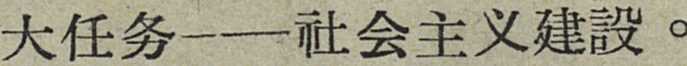大任务——社会主义建設。
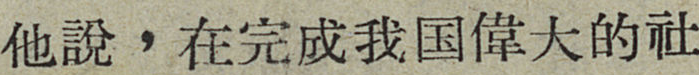他說，在完成我国偉大的社
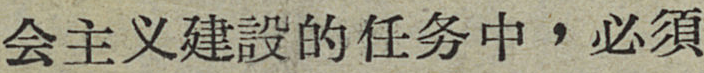会主义建設的任务中，必須
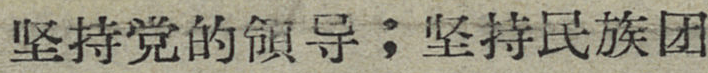坚持党的領导；坚持民族团
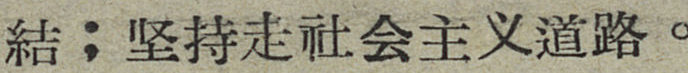結；坚持走社会主义道路。
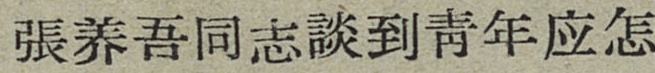張养吾同志談到靑年应怎
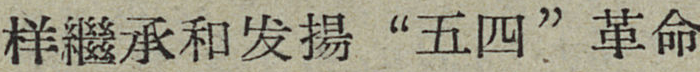样繼承和发揚“五四”革命
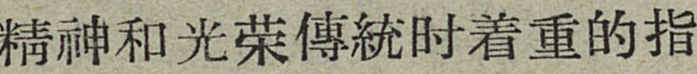精神和光荣傳統时着重的指
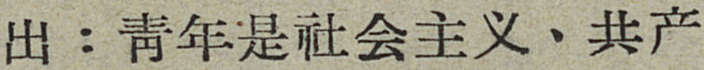出：靑年是社会主义、共产
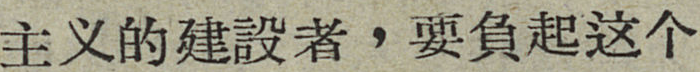主义的建設者，要負起这个
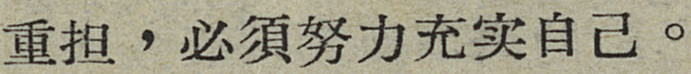重担，必須努力充实自己。
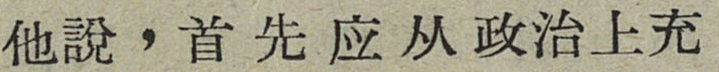他說：首先应从政治上充
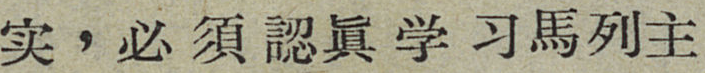实，必須認眞学习馬列主
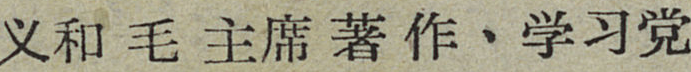义和毛主席著作、学习党
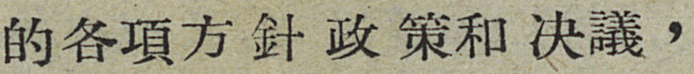的各項方針政策和决議，
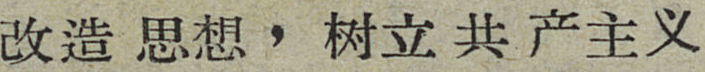改造思想，树立共产主义
